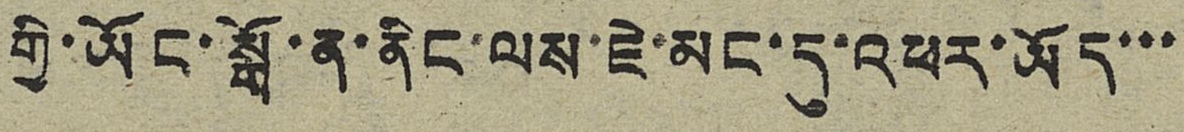གྱི་ཡོང་སྒོ་ན་ནིང་ལས་ཇེ་མང་དུ་འཕར་ཡོད་་་
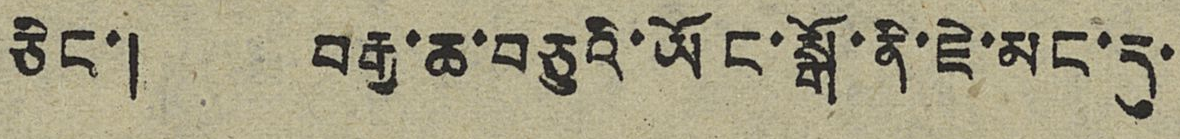ཅིང་། བརྒྱ་ཆ་བཅུའི་ཡོང་སྒོ་ནི་ཇེ་མང་དུ་
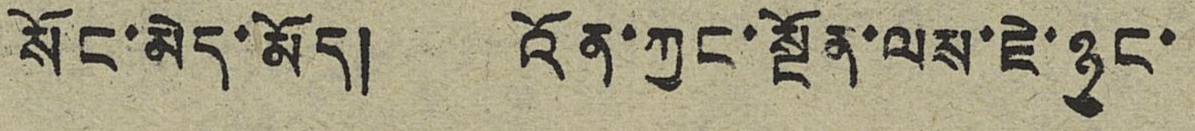སོང་མེད་མོད། འོན་ཀྱང་སྔོན་ལས་ཇེ་ཉུང་
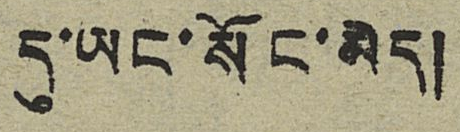དུ་ཡང་སོང་མེད།
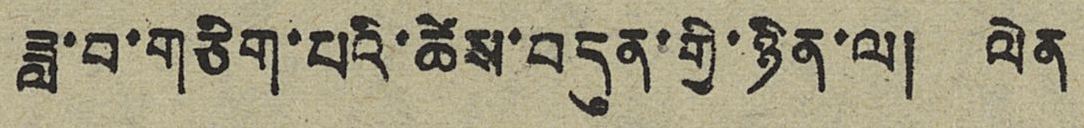ཟླ་བ་གཅིག་པའི་ཚེས་བདུན་གྱི་ཉིན་ལ། ལེན
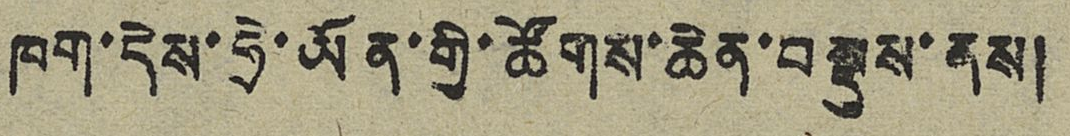ཁག་དེས་ཧྲེ་ཡོན་གྱི་ཚོགས་ཆེན་བསྡུས་ནས།
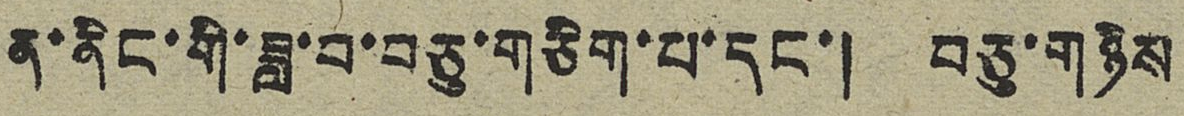ན་ནིང་གི་ཟླ་བ་བཅུ་གཅིག་པ་དང་། བཅུ་གཉིས
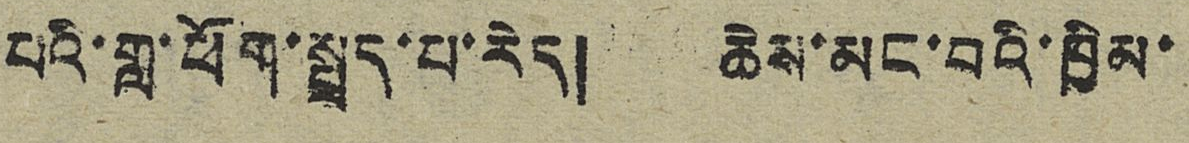པའི་གླ་ཕོག་སྤྲད་པ་རེད། ཆེས་མང་བའི་ཁྱིམ་
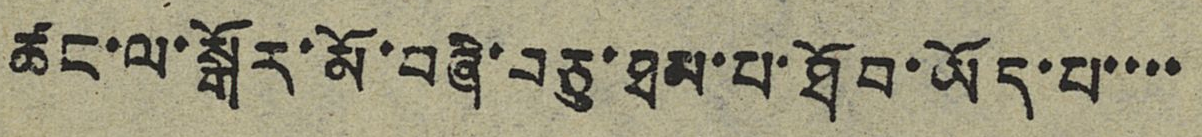ཚང་ལ་སྒོར་མོ་བཞི་བཅུ་ཐམ་པ་ཐོབ་ཡོད་པ་་་་
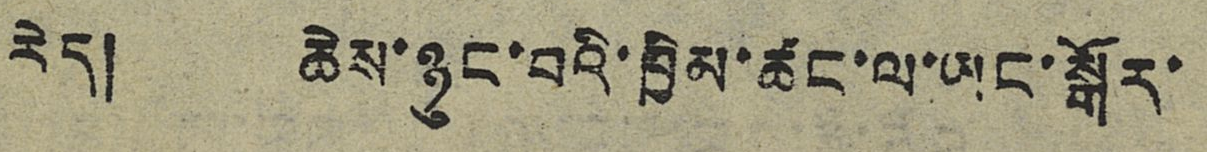རེད། ཆེས་ཉུང་བའི་ཁྱིམ་ཚང་ལ་ཡང་སྒོར་
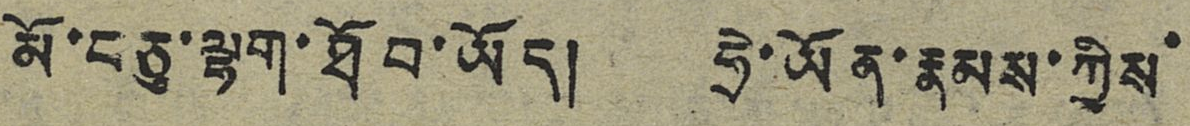མོ་བཅུ་ལྷག་ཐོབ་ཡོད། ཧྲེ་ཡོན་རྣམས་ཀྱིས་
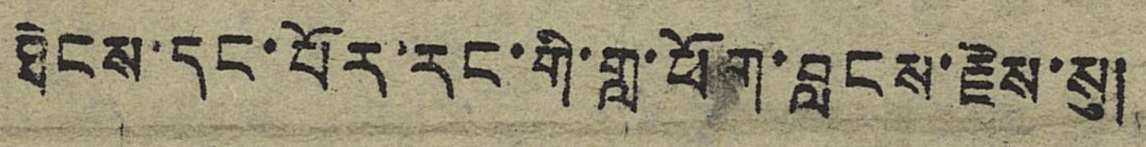ཐེངས་དང་པོར་རང་གི་གླ་ཕོག་བླངས་རྗེས་སུ།
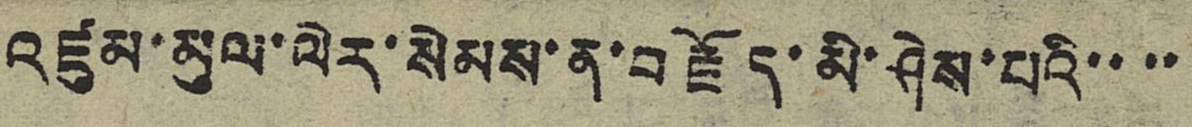འཛུམ་མུལ་ལེར་སེམས་ན་བརྗོད་མི་ཤེས་པའི་་་་
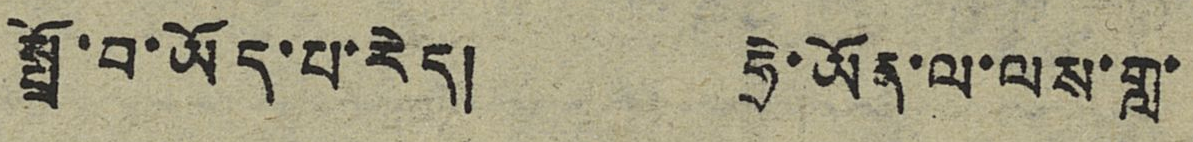སྤྲོ་བ་ཡོད་པ་རེད། ཧྲེ་ཡོན་ལ་ལས་གླ་
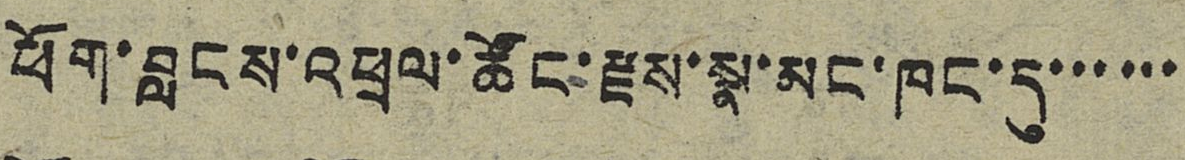ཕོག་བླངས་འཕྲལ་ཚོང་རྫས་སྣ་མང་ཁང་དུ་་་་་་
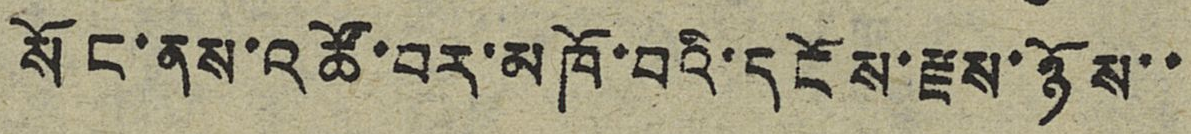སོང་ནས་འཚོ་བར་མཁོ་བའི་དངོས་རྫས་ཉོས་་
